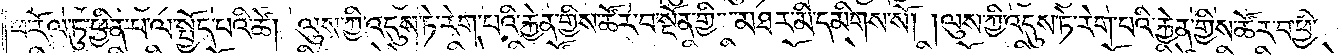ཕ་རོལ་ཏུ་ཕྱིན་པ་ལ་སྤྱོད་པའི་ཚེ། ལུས་ཀྱི་འདུས་ཏེ་རེག་པའི་རྐྱེན་གྱིས་ཚོར་བ་སྔོན་གྱི་མཐར་མི་དམིགས་སོ། །ལུས་ཀྱི་འདུས་ཏེ་རེག་པའི་རྐྱེན་གྱིས་ཚོར་བ་ཕྱི་
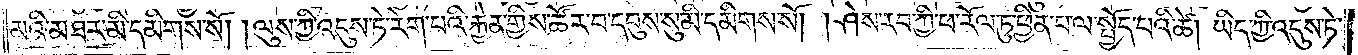མའི་མཐར་མི་དམིགས་སོ། །ལུས་ཀྱི་འདུས་ཏེ་རེག་པའི་རྐྱེན་གྱིས་ཚོར་བ་དབུས་སུ་མི་དམིགས་སོ། །ཤེས་རབ་ཀྱི་ཕ་རོལ་ཏུ་ཕྱིན་པ་ལ་སྤྱོད་པའི་ཚེ། ཡིད་ཀྱི་འདུས་ཏེ་
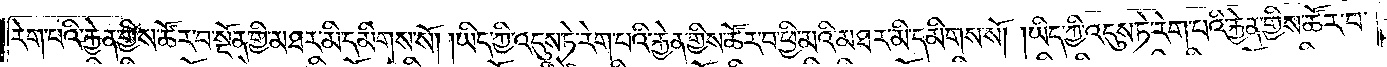རེག་པའི་རྐྱེན་གྱིས་ཚོར་བ་སྔོན་གྱི་མཐར་མི་དམིགས་སོ། །ཡིད་ཀྱི་འདུས་ཏེ་རེག་པའི་རྐྱེན་གྱིས་ཚོར་བ་ཕྱི་མའི་མཐར་མི་དམིགས་སོ། །ཡིད་ཀྱི་འདུས་ཏེ་རེག་པའི་རྐྱེན་གྱིས་ཚོར་བ་
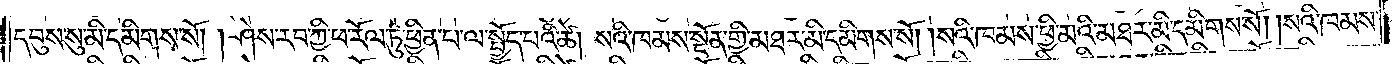དབུས་སུ་མི་དམིགས་སོ། །ཤེས་རབ་ཀྱི་ཕ་རོལ་ཏུ་ཕྱིན་པ་ལ་སྤྱོད་པའི་ཚེ། སའི་ཁམས་སྔོན་གྱི་མཐར་མི་དམིགས་སོ། །སའི་ཁམས་ཕྱི་མའི་མཐར་མི་དམིགས་སོ། །སའི་ཁམས་
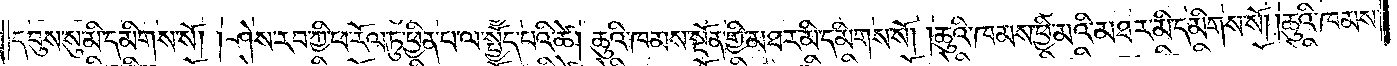དབུས་སུ་མི་དམིགས་སོ། །ཤེས་རབ་ཀྱི་ཕ་རོལ་ཏུ་ཕྱིན་པ་ལ་སྤྱོད་པའི་ཚེ། ཆུའི་ཁམས་སྔོན་གྱི་མཐར་མི་དམིགས་སོ། །ཆུའི་ཁམས་ཕྱི་མའི་མཐར་མི་དམིགས་སོ། །ཆུའི་ཁམས་
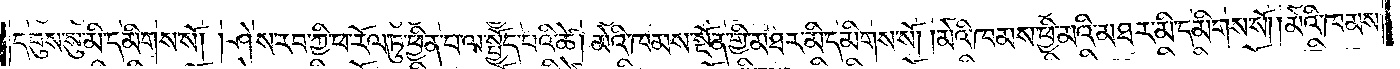དབུས་སུ་མི་དམིགས་སོ། །ཤེས་རབ་ཀྱི་ཕ་རོལ་ཏུ་ཕྱིན་པ་ལ་སྤྱོད་པའི་ཚེ། མེའི་ཁམས་སྔོན་གྱི་མཐར་མི་དམིགས་སོ། །མེའི་ཁམས་ཕྱི་མའི་མཐར་མི་དམིགས་སོ། །མེའི་ཁམས་
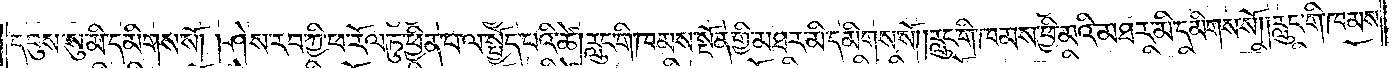དབུས་སུ་མི་དམིགས་སོ། །ཤེས་རབ་ཀྱི་ཕ་རོལ་ཏུ་ཕྱིན་པ་ལ་སྤྱོད་པའི་ཚེ། རླུང་གི་ཁམས་སྔོན་གྱི་མཐར་མི་དམིགས་སོ། །རླུང་གི་ཁམས་ཕྱི་མའི་མཐར་མི་དམིགས་སོ། །རླུང་གི་ཁམས་
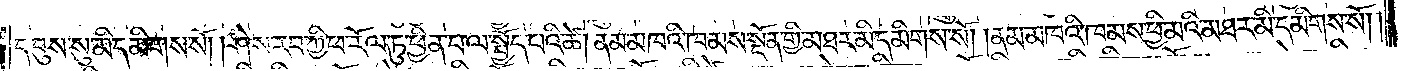དབུས་སུ་མི་དམིགས་སོ། །ཤེས་རབ་ཀྱི་ཕ་རོལ་ཏུ་ཕྱིན་པ་ལ་སྤྱོད་པའི་ཚེ། ནམ་མཁའི་ཁམས་སྔོན་གྱི་མཐར་མི་དམིགས་སོ། །ནམ་མཁའི་ཁམས་ཕྱི་མའི་མཐར་མི་དམིགས་སོ།
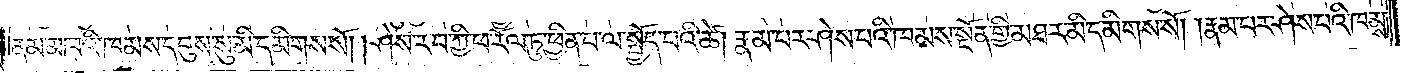ནམ་མཁའི་ཁམས་དབུས་སུ་མི་དམིགས་སོ། །ཤེས་རབ་ཀྱི་ཕ་རོལ་ཏུ་ཕྱིན་པ་ལ་སྤྱོད་པའི་ཚེ། རྣམ་པར་ཤེས་པའི་ཁམས་སྔོན་གྱི་མཐར་མི་དམིགས་སོ། །རྣམ་པར་ཤེས་པའི་ཁམས་
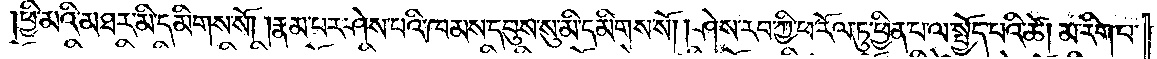ཕྱི་མའི་མཐར་མི་དམིགས་སོ། །རྣམ་པར་ཤེས་པའི་ཁམས་དབུས་སུ་མི་དམིགས་སོ། །ཤེས་རབ་ཀྱི་ཕ་རོལ་ཏུ་ཕྱིན་པ་ལ་སྤྱོད་པའི་ཚེ། མ་རིག་པ་
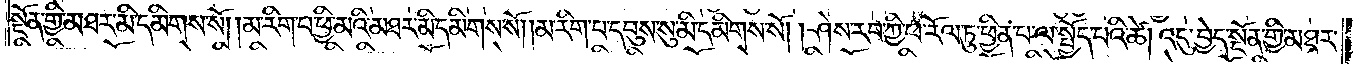སྔོན་གྱི་མཐར་མི་དམིགས་སོ། །མ་རིག་པ་ཕྱི་མའི་མཐར་མི་དམིགས་སོ། །མ་རིག་པ་དབུས་སུ་མི་དམིགས་སོ། །ཤེས་རབ་ཀྱི་ཕ་རོལ་ཏུ་ཕྱིན་པ་ལ་སྤྱོད་པའི་ཚེ། འདུ་བྱེད་སྔོན་གྱིས་མཐར་
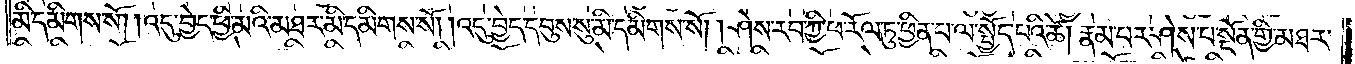མི་དམིགས་སོ། །འདུ་བྱེད་ཕྱི་མའི་མཐར་མི་དམིགས་སོ། །འདུ་བྱེད་དབུས་སུ་མི་དམིགས་སོ། །ཤེས་རབ་ཀྱི་ཕ་རོལ་ཏུ་ཕྱིན་པ་ལ་སྤྱོད་པའི་ཚེ། རྣམ་པར་ཤེས་པ་སྔོན་གྱི་མཐར་
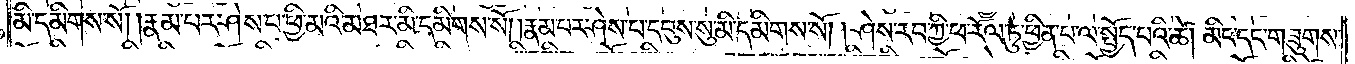མི་དམིགས་སོ། །རྣམ་པར་ཤེས་པ་ཕྱི་མའི་མཐར་མི་དམིགས་སོ། །རྣམ་པར་ཤེས་པ་དབུས་སུ་མི་དམིགས་སོ། །ཤེས་རབ་ཀྱི་ཕ་རོལ་ཏུ་ཕྱིན་པ་ལ་སྤྱོད་པའི་ཚེ། མིང་དང་གཟུགས་
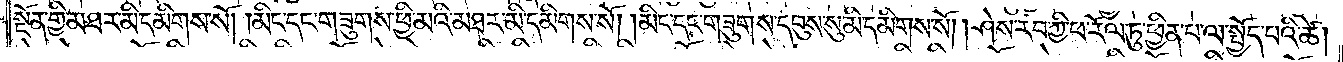སྔོན་གྱི་མཐར་མི་དམིགས་སོ། །མིང་དང་གཟུགས་ཀྱི་ཕྱི་མའི་མཐར་མི་དམིགས་སོ། །མིང་དང་གཟུགས་དབུས་སུ་མི་དམིགས་སོ། །ཤེས་རབ་ཀྱི་ཕ་རོལ་ཏུ་ཕྱིན་པ་ལ་སྤྱོད་པའི་ཚེ།
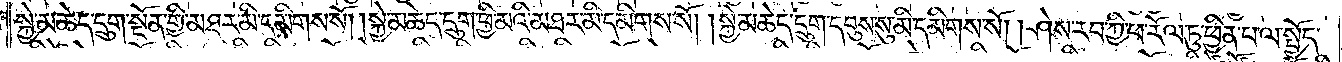སྐྱེ་མཆེད་དྲུག་སྔོན་གྱི་མཐར་མི་དམིགས་སོ། །སྐྱེ་མཆེད་དྲུག་ཕྱི་མའི་མཐར་མི་དམིགས་སོ། །སྐྱེ་མཆེད་དྲུག་དབུས་སུ་མི་དམིགས་སོ། །ཤེས་རབ་ཀྱི་ཕ་རོལ་ཏུ་ཕྱིན་པ་ལ་སྤྱོད་
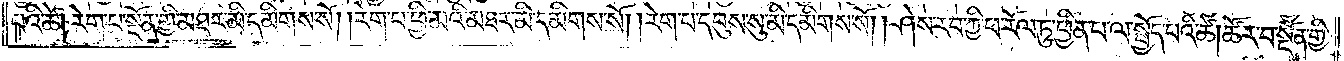པའི་ཚེ། རེག་པ་སྔོན་གྱི་མཐར་མི་དམིགས་སོ། །རེག་པ་ཕྱི་མའི་མཐར་མི་དམིགས་སོ། །རེག་པ་དབུས་སུ་མི་དམིགས་སོ། །ཤེས་རབ་ཀྱི་ཕ་རོལ་ཏུ་ཕྱིན་པ་ལ་སྤྱོད་པའི་ཚེ། ཚོར་བ་སྔོན་གྱི་
